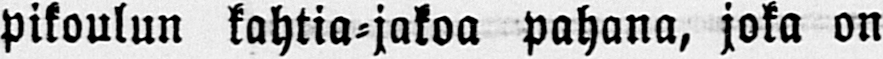pikoulun kahtia-jakoa pahana, joka on
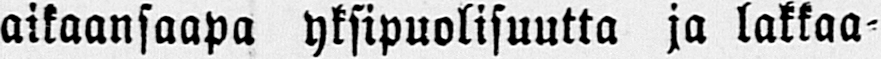aikaansaapa yksipuolisuutta ja lakkaa-
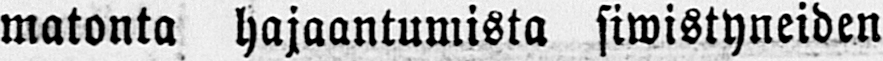matonta hajaantumista siwistyneiden
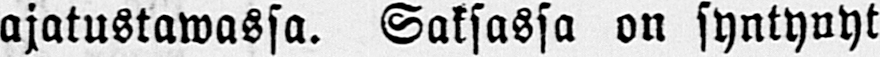ajatustawassa. Saksassa on syntynyt
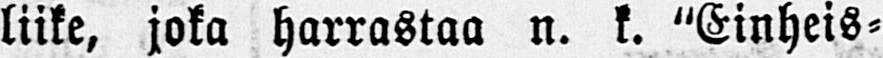liike, joka harrastaa n. k. "Einheis-
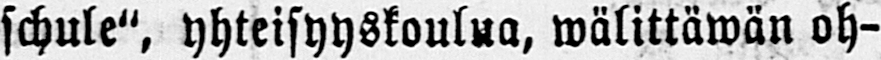schule", yhteisyyskoulua, välittävän oh-
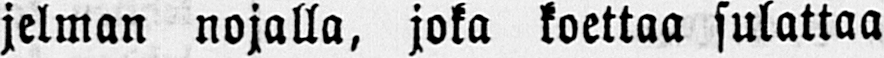jelman nojalla, joka koettaa sulattaa
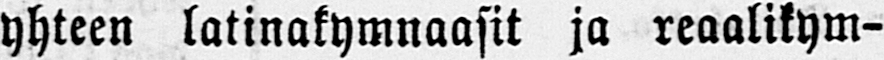yhteen latinakymnaasit ja reaalikym-
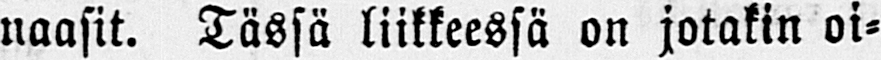naasit. Tässä liikkeessä on jotakin oi-
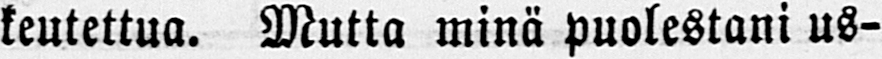keutettua. Mutta minä puolestani us-
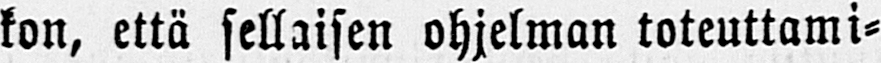kon, että sellaisen ohjelman toteuttami-
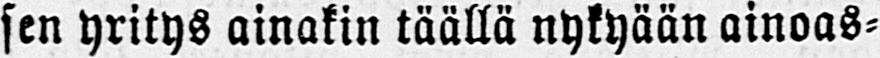sen yritys ainakin täällä nykyään ainoas-
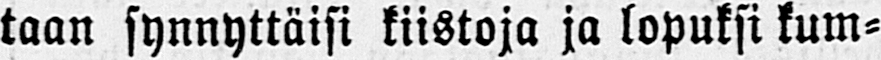taan synnyttäisi kiistoja ja lopuksi kum-
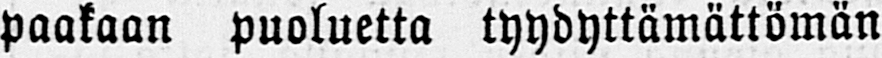paakaan puoluetta tyydyttämättömän
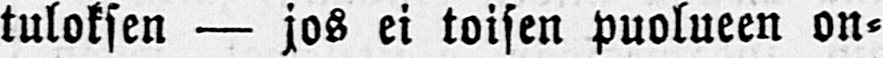tuloksen — jos ei toisen puolueen on-
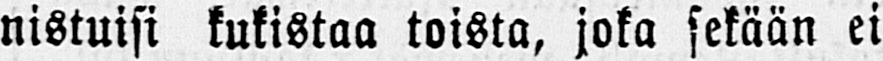nistuisi kukistaa toista, joka sekään ei
